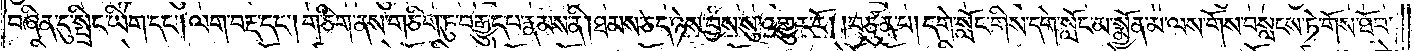བཞིན་དུ་སྤྲིང་ཡིག་དང༌། ལག་བརྡ་དང༌། གཅིག་ནས་གཅིག་ཏུ་བརྒྱུད་པ་རྣམས་ནི། ཐམས་ཅད་ཉེས་བྱས་སུ་འགྱུར་རོ། །བཙུན་པ། དགེ་སློང་གིས་དགེ་སློང་མ་སྨྱོན་མ་ལས་གོས་བསླངས་ཏེ་གོས་ཐོབ་
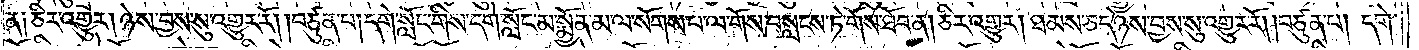ན༑ ཅིར་འགྱུར། ཉེས་བྱས་སུ་འགྱུར་རོ། །བཙུན་པ། དགེ་སློང་གིས་དགེ་སློང་མ་སྨྱོན་མ་ལ་སོགས་པ་ལ་གོས་བསླངས་ཏེ་གོས་ཐོབ་ན། ཅིར་འགྱུར། ཐམས་ཅད་ཉེས་བྱས་སུ་འགྱུར་རོ། །བཙུན་པ། དགེ་
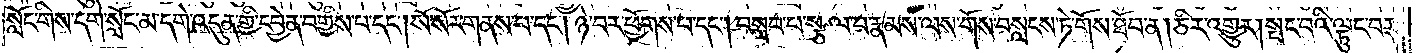སློང་གིས་དགེ་སློང་མ་དགེ་འདུན་གྱི་དབྱེན་བགྱིས་པ་དང༌། སོ་སོར་གནས་པ་དང༌། ཉེ་བར་ཕྱོགས་པ་དང༌། བསླབ་པ་སྩལ་བ་རྣམས་ལས་གོས་བསླངས་ཏེ་གོས་ཐོབ་ན། ཅིར་འགྱུར། སྤང་བའི་ལྟུང་བར་
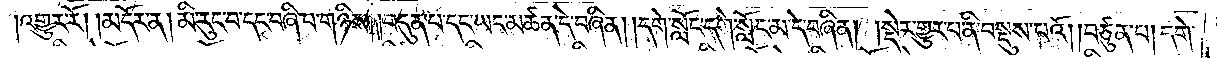འགྱུར་རོ། །མདོར་ན། མི་རུང་བ་དང་བཞི་བ་གཉིས། །བདུན་པ་དང་ཡང་མཚན་དེ་བཞིན། །དགེ་སློང་དགེ་སློང་མ་དེ་བཞིན། །སྡེར་གྱུར་པ་ནི་བསྡུས་པའོ། །བཙུན་པ། དགེ་
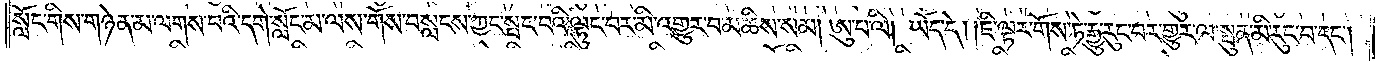སློང་གིས་གཉེན་མ་ལགས་པའི་དགེ་སློང་མ་ལས་གོས་བསླངས་ཀྱང་སྤང་བའི་ལྟུང་བར་མི་འགྱུར་བ་མཆིས་སམ། ཨུ་པ་ལི། ཡོད་དེ། །ཇི་ལྟར་གོས་ཏེ་རྒྱུ་རུང་བར་གྱུར་ལ་སྤུན་མི་རུང་བ་དང༌།
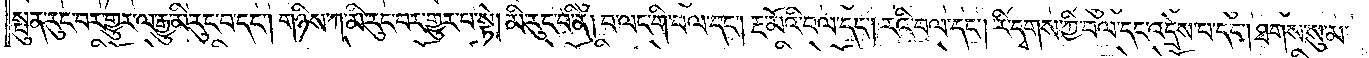སྤུན་རུང་བར་གྱུར་ལ་རྒྱུ་མི་རུང་བ་དང༌། གཉིས་ཀ་མི་རུང་བར་གྱུར་པ་སྟེ། མི་རུང་བ་ནི། བ་ལང་གི་བལ་དང༌། རྔ་མོའི་བལ་དང༌། རའི་བལ་དང༌། རི་དྭགས་ཀྱི་བལ་དང་འདྲེས་པ་དང༌། ཐགས་སུ་མ་
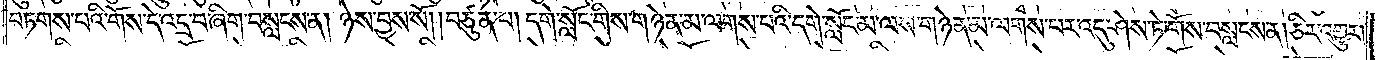བཏགས་པའི་གོས་དེ་འདྲ་བ་ཞིག་བསླངས་ན། ཉེས་བྱས་སོ། །བཙུན་པ། དགེ་སློང་གིས་གཉེན་མ་ལགས་པའི་དགེ་སློང་མ་ལས་གཉེན་མ་ལགས་པར་འདུ་ཤེས་ཏེ་གོས་བསླངས་ན། ཅིར་འགྱུར་
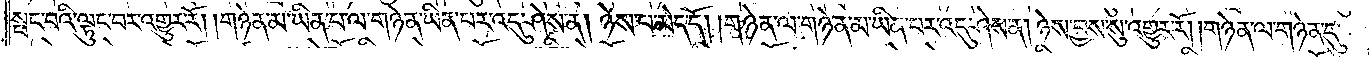སྤང་བའི་ལྟུང་བར་འགྱུར་རོ། །གཉེན་མ་ཡིན་པ་ལ་གཉེན་ཡིན་པར་འདུ་ཤེས་ན། ཉེས་པ་མེད་དོ། །གཉེན་ལ་གཉེན་མ་ཡིན་པར་འདུ་ཤེས་ན། ཉེས་བྱས་སུ་འགྱུར་རོ། །གཉེན་ལ་གཉེན་དུ་
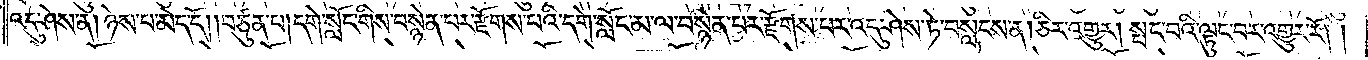འདུ་ཤེས་ན། ཉེས་པ་མེད་དོ། །བཙུན་པ། དགེ་སློང་གིས་བསྙེན་པར་རྫོགས་པའི་དགེ་སློང་མ་ལ་བསྙེན་པར་རྫོགས་པར་འདུ་ཤེས་ཏེ་བསླངས་ན། ཅིར་འགྱུར། སྤང་བའི་ལྟུང་བར་འགྱུར་རོ། །
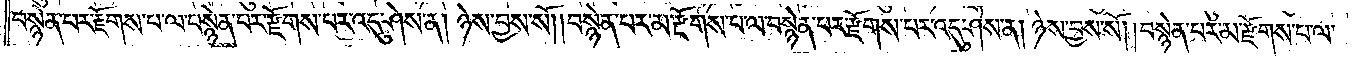བསྙེན་པར་རྫོགས་པ་ལ་བསྙེན་པར་རྫོགས་པར་འདུ་ཤེས་ན། ཉེས་བྱས་སོ། །བསྙེན་པར་མ་རྫོགས་པ་ལ་བསྙེན་པར་རྫོགས་པར་འདུ་ཤེས་ན། ཉེས་བྱས་སོ། །བསྙེན་པར་མ་རྫོགས་པ་ལ་
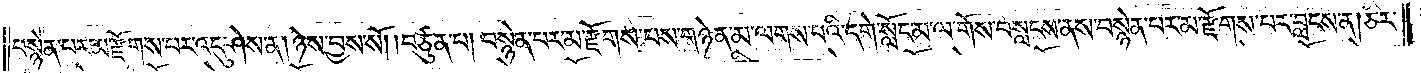བསྙེན་པར་མ་རྫོགས་པར་འདུ་ཤེས་ན། ཉེས་བྱས་སོ། །བཙུན་པ། བསྙེན་པར་མ་རྫོགས་པས་གཉེན་མ་ལགས་པའི་དགེ་སློང་མ་ལ་གོས་བསླངས་ནས་བསྙེན་པར་མ་རྫོགས་པར་བླངས་ན། ཅིར་
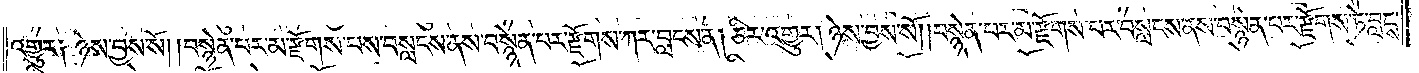འགྱུར༑ ཉེས་བྱས་སོ། །བསྙེན་པར་མ་རྫོགས་པས་བསླངས་ནས་བསྙེན་པར་རྫོགས་ཀར་བླངས་ན། ཅིར་འགྱུར། ཉེས་བྱས་སོ། །བསྙེན་པར་མ་རྫོགས་པར་བསླངས་ནས་བསྙེན་པར་རྫོགས་ཏེ་བླངས་
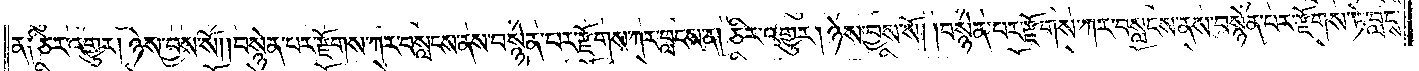ན༑ ཅིར་འགྱུར། ཉེས་བྱས་སོ། །བསྙེན་པར་རྫོགས་ཀར་བསླངས་ནས་བསྙེན་པར་རྫོགས་ཀར་བླངས་ན། ཅིར་འགྱུར། ཉེས་བྱས་སོ། །བསྙེན་པར་རྫོགས་ཀར་བསླངས་ནས་བསྙེན་པར་རྫོགས་ཏེ་བླངས་
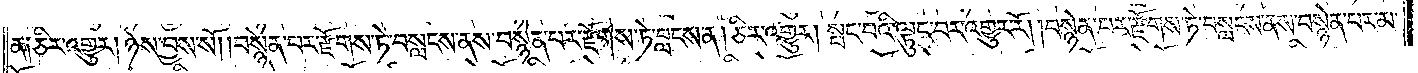ན༑ ཅིར་འགྱུར། ཉེས་བྱས་སོ། །བསྙེན་པར་རྫོགས་ཏེ་བསླངས་ནས་བསྙེན་པར་རྫོགས་ཏེ་བླངས་ན། ཅིར་འགྱུར། སྤང་བའི་ལྟུང་བར་འགྱུར་རོ། །བསྙེན་པར་རྫོགས་ཏེ་བསླངས་ནས་བསྙེན་པར་མ་
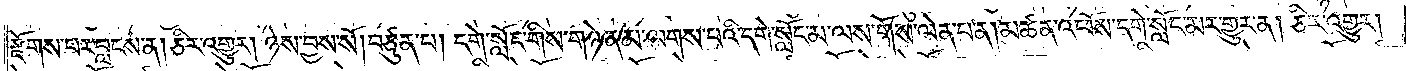རྫོགས་པར་བླངས་ན། ཅིར་འགྱུར། ཉེས་བྱས་སོ། བཙུན་པ། དགེ་སློང་གིས་གཉེན་མ་ལགས་པའི་དགེ་སློང་མ་ལས་གོས་ལེན་པ་ན། མཚན་འཕོས་དགེ་སློང་མར་གྱུར་ན། ཅིར་འགྱུར།
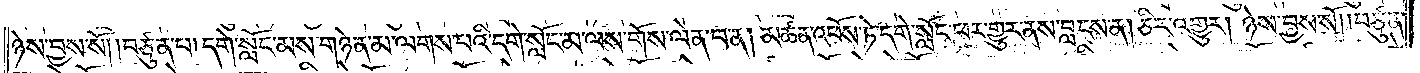ཉེས་བྱས་སོ། །བཙུན་པ། དགེ་སློང་མས་གཉེན་མ་ལགས་པའི་དགེ་སློང་མ་ལས་གོས་ལེན་པ་ན། མཚན་འཕོས་ཏེ་དགེ་སློང་ཕར་གྱུར་ནས་བླངས་ན། ཅིར་འགྱུར། ཉེས་བྱས་སོ། །བཙུན་
